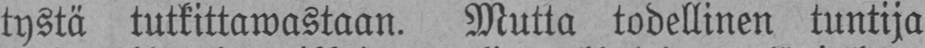tystä tutkittawastaan. Mutta todellinen tuntija
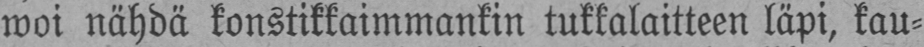woi nähdä konstikkaimmankin tukkalaitteen läpi, kau-
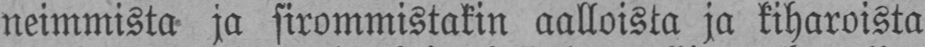neimmista ja sirommistakin aalloista ja kiharoista
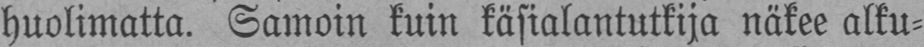huolimatta. Samoin kuin käsialantutkija näkee alku-
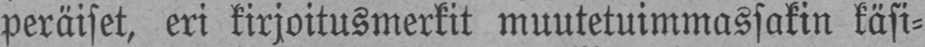peräiset, eri kirjoitusmerkit muutetuimmassakin käsi-
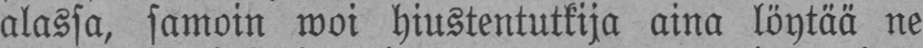alassa, samoin woi hiustentutkija aina löytää ne
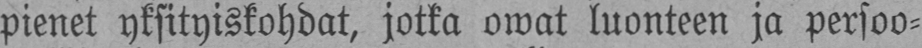pienet yksityiskohdat, jotka owat luonteen ja persoo-
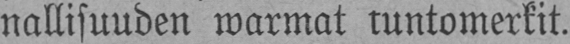nallisuuden warmat tuntomerkit.
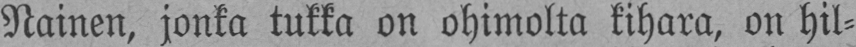Nainen, jonka tukka on ohimolta kihara, on hil-
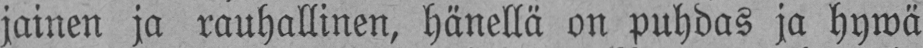jainen ja rauhallinen, hänellä on puhdas ja hywä
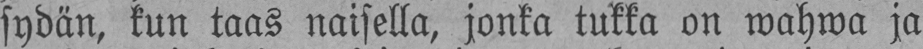sydän, kun taas naisella, jonka tukka on wahwa ja
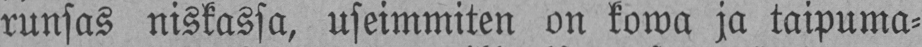runsas niskassa, useimmiten on kowa ja taipuma-
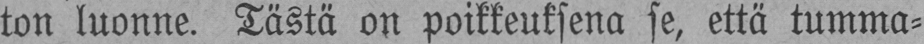ton luonne. Tästä on poikkeuksena se, että tumma-
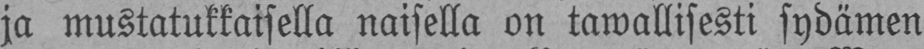ja mustatukkaisella naisella on tawallisesti sydämen
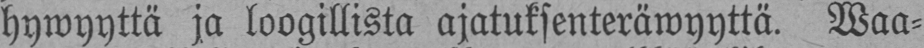hywyyttä ja loogillista ajatuksenteräwyyttä. Waa-
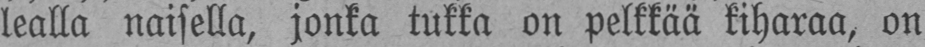lealla naisella, jonka tukka on pelkkää kiharaa, on
